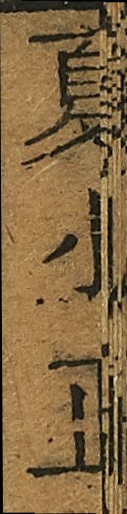夏小正
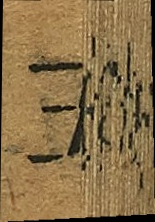五
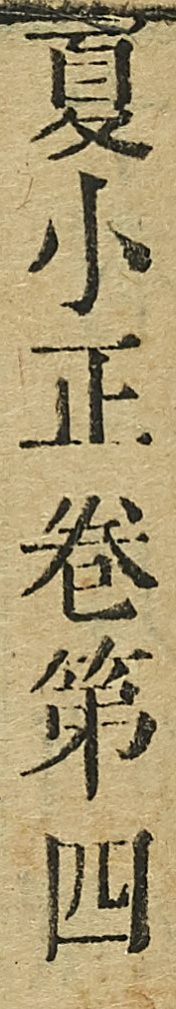夏小正卷第四
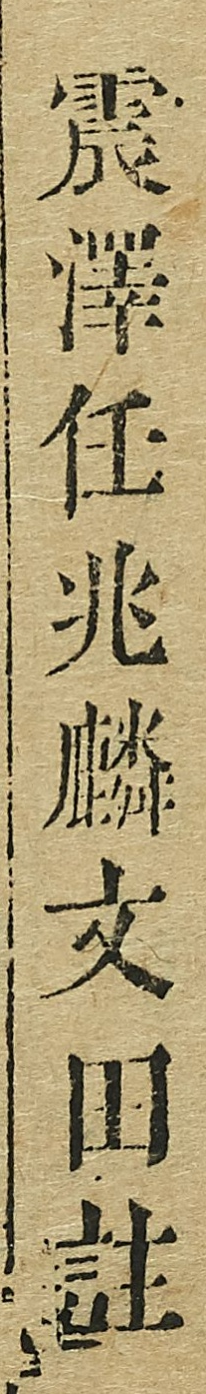震澤任兆麟文田註
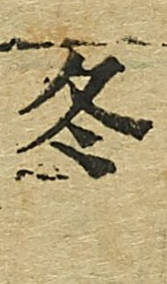冬
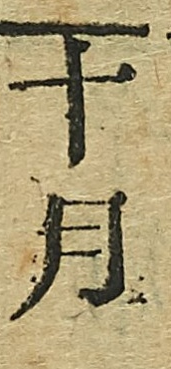十月
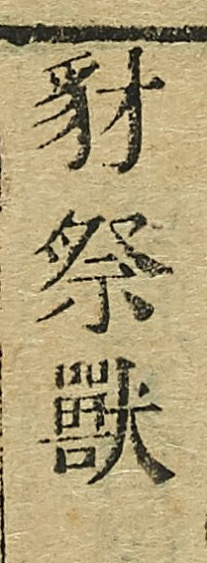豺祭獸
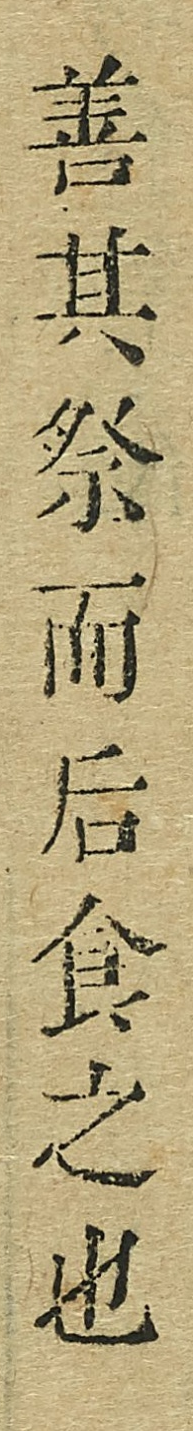善其祭而后食之也
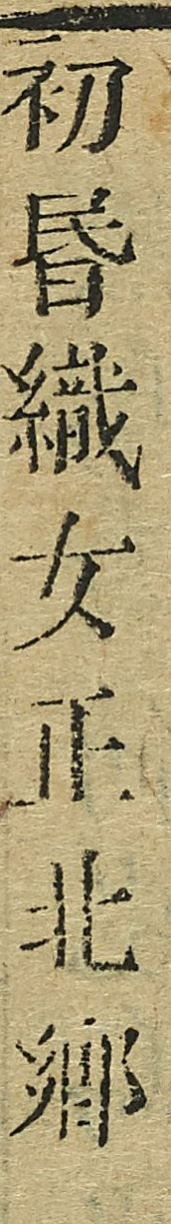初昏織女正北鄰
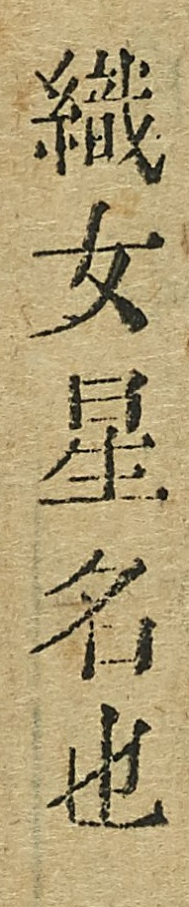織女星名也
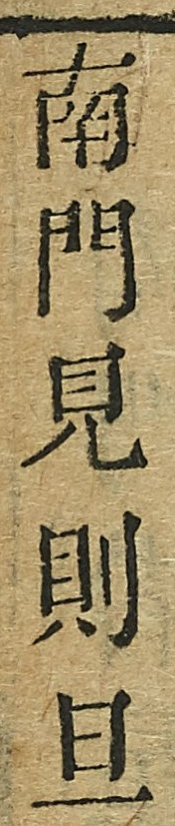南門見則旦
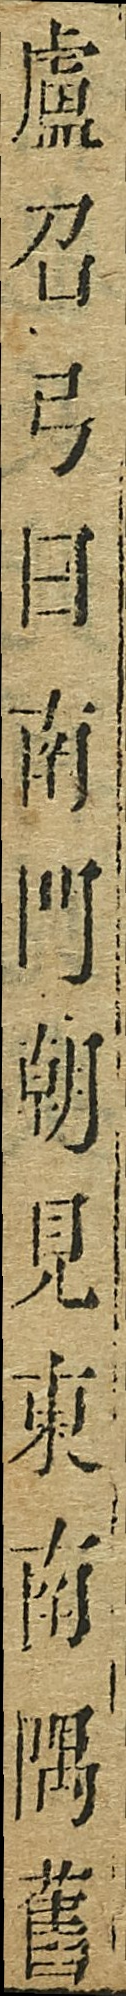盧召弓曰南門朝見東南隅舊
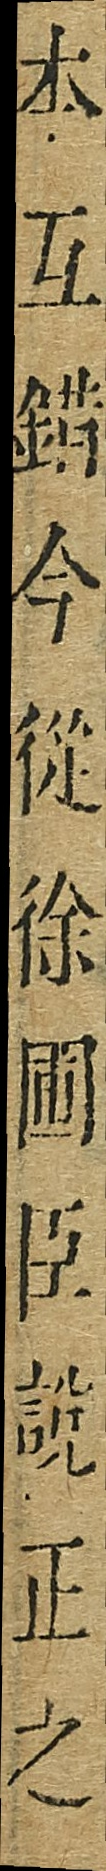本互錯今從徐圃臣說正之
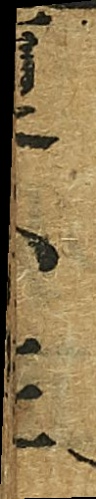夏小正
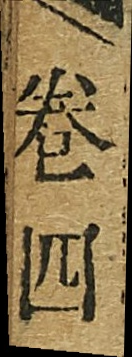卷四
